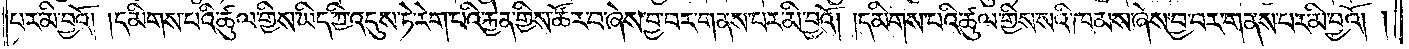པར་མི་བྱའོ། །དམིགས་པའི་ཚུལ་གྱིས་ཡིད་ཀྱི་འདུས་ཏེ་རེག་པའི་རྐྱེན་གྱིས་ཚོར་བ་ཞེས་བྱ་བར་གནས་པར་མི་བྱའོ། །དམིགས་པའི་ཚུལ་གྱིས་སའི་ཁམས་ཞེས་བྱ་བར་གནས་པར་མི་བྱའོ། །
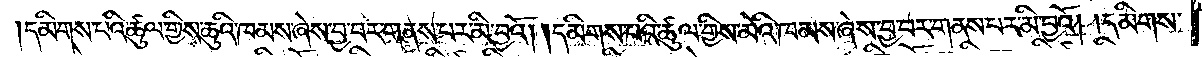དམིགས་པའི་ཚུལ་གྱིས་ཆུའི་ཁམས་ཞེས་བྱ་བར་གནས་པར་མི་བྱའོ། །དམིགས་པའི་ཚུལ་གྱིས་མེའི་ཁམས་ཞེས་བྱ་བར་གནས་པར་མི་བྱའོ། །དམིགས་
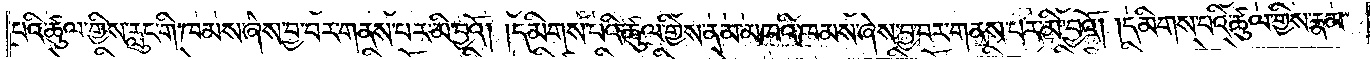པའི་ཚུལ་གྱིས་རླུང་གི་ཁམས་ཞེས་བྱ་བར་གནས་པར་མི་བྱའོ། །དམིགས་པའི་ཚུལ་གྱིས་ནམ་མཁའི་ཁམས་ཞེས་བྱ་བར་གནས་པར་མི་བྱའོ། །དམིགས་པའི་ཚུལ་གྱིས་རྣམ་
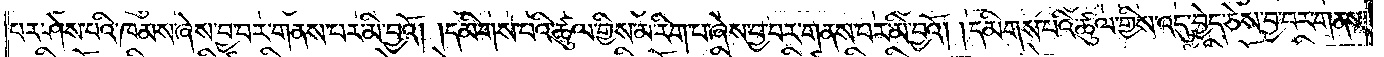པར་ཤེས་པའི་ཁམས་ཞེས་བྱ་བར་གནས་པར་མི་བྱའོ། །དམིགས་པའི་ཚུལ་གྱིས་མ་རིག་པ་ཞེས་བྱ་བར་གནས་པར་མི་བྱའོ། །དམིགས་པའི་ཚུལ་གྱིས་འདུ་བྱེད་ཅེས་བྱ་བར་གནས་
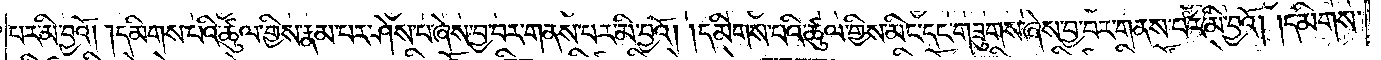པར་མི་བྱའོ། །དམིགས་པའི་ཚུལ་གྱིས་རྣམ་པར་ཤེས་པ་ཞེས་བྱ་བར་གནས་པར་མི་བྱའོ། །དམིགས་པའི་ཚུལ་གྱིས་མིང་དང་གཟུགས་ཞེས་བྱ་བར་གནས་པར་མི་བྱའོ། །དམིགས་
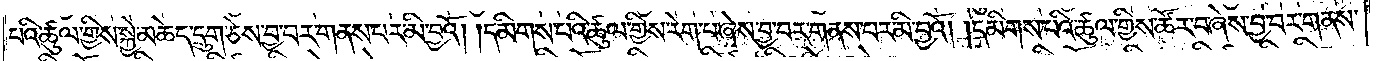པའི་ཚུལ་གྱིས་སྐྱེ་མཆེད་དྲུག་ཅེས་བྱ་པར་གནས་པར་མི་བྱའོ། །དམིགས་པའི་ཚུལ་གྱིས་རེག་པ་ཞེས་བྱ་བར་གནས་པར་མི་བྱའོ། །དམིགས་པའི་ཚུལ་གྱིས་ཚོར་བ་ཞེས་བྱ་བར་གནས་
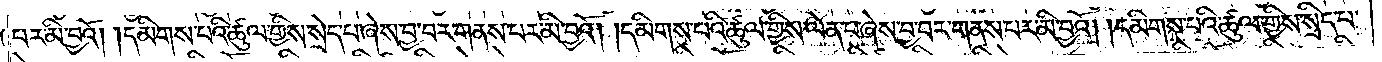པར་མི་བྱའོ། །དམིགས་པའི་ཚུལ་གྱིས་སྲེད་པ་ཞེས་བྱ་བར་གནས་པར་མི་བྱའོ། །དམིགས་པའི་ཚུལ་གྱིས་ལེན་པ་ཞེས་བྱ་བར་གནས་པར་མི་བྱའོ། །དམིགས་པའི་ཚུལ་གྱིས་སྲིད་པ་
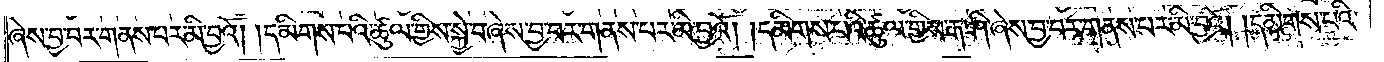ཞེས་བྱ་བར་གནས་པར་མི་བྱའོ། །དམིགས་པའི་ཚུལ་གྱིས་སྐྱེ་བ་ཞེས་བྱ་བར་གནས་པར་མི་བྱའོ། །དམིགས་པའི་ཚུལ་གྱིས་རྒ་ཤི་ཞེས་བྱ་བར་གནས་པར་མི་བྱའོ། །དམིགས་པའི་
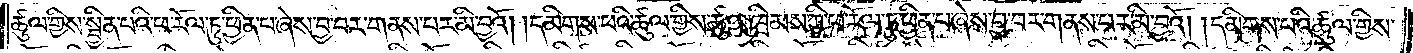ཚུལ་གྱིས་སྦྱིན་པའི་ཕ་རོལ་ཏུ་ཕྱིན་པ་ཞེས་བྱ་བར་གནས་པར་མི་བྱའོ། །དམིགས་པའི་ཚུལ་གྱིས་ཚུལ་ཁྲིམས་ཀྱི་ཕ་རོལ་ཏུ་ཕྱིན་པ་ཞེས་བྱ་བར་གནས་པར་མི་བྱའོ། །དམིགས་པའི་ཚུལ་གྱིས་
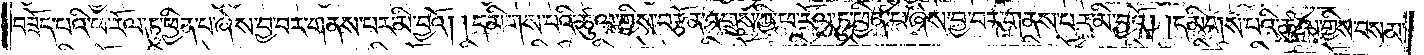བཟོད་པའི་ཕ་རོལ་ཏུ་ཕྱིན་པ་ཞེས་བྱ་བར་གནས་པར་མི་བྱའོ། །དམིགས་པའི་ཚུལ་གྱིས་བརྩོན་འགྲུས་ཀྱི་ཕ་རོལ་ཏུ་ཕྱིན་པ་ཞེས་བྱ་བར་གནས་པར་མི་བྱའོ། །དམིགས་པའི་ཚུལ་གྱིས་བསམ་
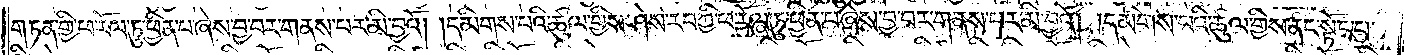གཏན་གྱི་ཕ་རོལ་ཏུ་ཕྱིན་པ་ཞེས་བྱ་བར་གནས་པར་མི་བྱའོ། །དམིགས་པའི་ཚུལ་གྱིས་ཤེས་རབ་ཀྱི་ཕ་རོལ་ཏུ་ཕྱིན་པ་ཞེས་བྱ་བར་གནས་པར་མི་བྱའོ། །དམིགས་པའི་ཚུལ་གྱིས་ནང་སྟོང་པ་
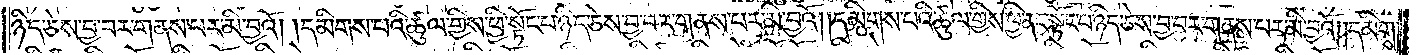ཉིད་ཅེས་བྱ་བར་གནས་པར་མི་བྱའོ། །དམིགས་པའི་ཚུལ་གྱིས་ཕྱི་སྟོང་པ་ཉིད་ཅེས་བྱ་བར་གནས་པར་མི་བྱའོ། །དམིགས་པའི་ཚུལ་གྱིས་ཕྱི་ནང་སྟོང་པ་ཉིད་ཅེས་བྱ་བར་གནས་པར་མི་བྱའོ། །དམིགས་
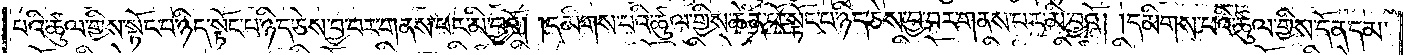པའི་ཚུལ་གྱིས་སྟོང་པ་ཉིད་སྟོང་པ་ཉིད་ཅེས་བྱ་བར་གནས་པར་མི་བྱའོ། །དམིགས་པའི་ཚུལ་གྱིས་ཆེན་པོ་སྟོང་པ་ཉིད་ཅེས་བྱ་བར་གནས་པར་མི་བྱའོ། །དམིགས་པའི་ཚུལ་གྱིས་དོན་དམ་
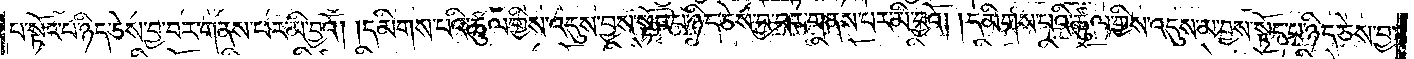པ་སྟོང་པ་ཉིད་ཅེས་བྱ་བར་གནས་པར་མི་བྱའོ། །དམིགས་པའི་ཚུལ་གྱིས་འདུས་བྱས་སྟོང་པ་ཉིད་ཅེས་བྱ་བར་གནས་པར་མི་བྱའོ། །དམིགས་པའི་ཚུལ་གྱིས་འདུས་མ་བྱས་སྟོང་པ་ཉིད་ཅེས་བྱ་
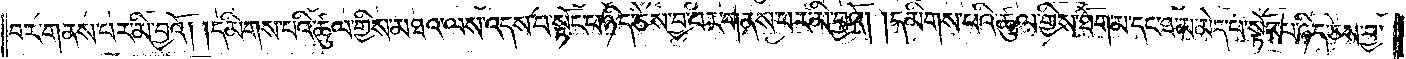བར་གནས་པར་མི་བྱའོ། །དམིགས་པའི་ཚུལ་གྱིས་མཐའ་ལས་འདས་པ་སྟོང་པ་ཉིད་ཅེས་བྱ་བར་གནས་པར་མི་བྱའོ། །དམིགས་པའི་ཚུལ་གྱིས་ཐོག་མ་དང་ཐ་མ་མེད་པ་སྟོང་པ་ཉིད་ཅེས་བྱ་
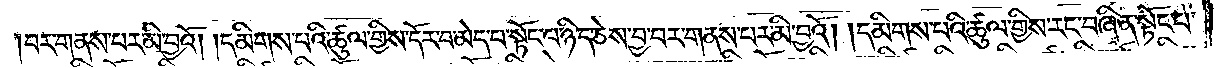བར་གནས་པར་མི་བྱའོ། །དམིགས་པའི་ཚུལ་གྱིས་དོར་བ་མེད་པ་སྟོང་པ་ཉིད་ཅེས་བྱ་བར་གནས་པར་མི་བྱའོ། །དམིགས་པའི་ཚུལ་གྱིས་རང་བཞིན་སྟོང་པ་
